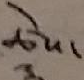ཚེས་
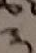༣
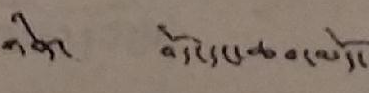ཉིན་ བོད་དང་ཆབ་མདོ་
